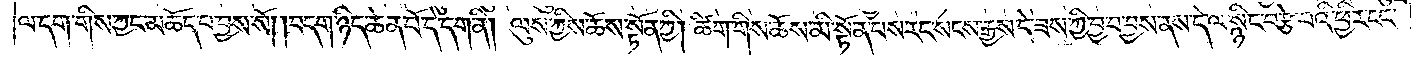ལ་དག་གིས་ཀྱང་མཆོད་པ་བྱས་སོ། །བདག་ཉིད་ཆེན་པོ་དེ་དག་ནི། ལུས་ཀྱིས་ཆོས་སྟོན་གྱི། ཚིག་གིས་ཆོས་མི་སྟོན་པས་རང་སངས་རྒྱས་དེ་ཟས་ཀྱི་བྱ་བ་བྱས་ནས་དེ་ལ་སྙིང་བརྩེ་བའི་ཕྱིར་ངང་
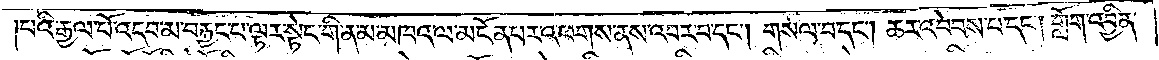།པའི་རྒྱལ་པོ་འདབ་མ་བརྐྱང་པ་ལྟར་སྟེང་གི་ནམ་མཁའ་ལ་མངོན་པར་འཕགས་ནས་འབར་བ་དང༌། གསལ་བ་དང༌། ཆར་འབེབས་པ་དང༌། གློག་འབྱིན་
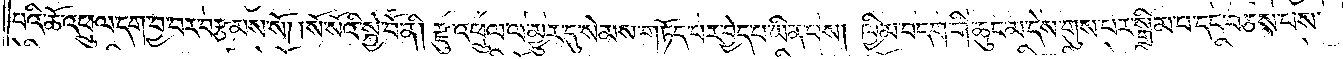པའི་ཆོ་འཕྲུལ་དག་བྱ་བར་བརྩམས་སོ། །སོ་སོའི་སྐྱེ་བོ་ནི། རྫུ་འཕྲུལ་ལ་མྱུར་དུ་སེམས་གཏོད་པར་བྱེད་པ་ཡིན་པས། ཁྱིམ་བདག་གི་ཆུང་མ་དེས་གུས་པར་སྒྲིམ་པ་དང་བཅས་པས་
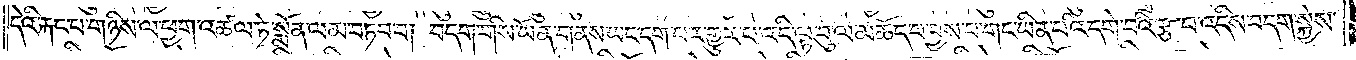དེའི་རྐང་པ་གཉིས་ལ་ཕྱག་འཚལ་ཏེ་སྨོན་ལམ་བཏབ་པ། བདག་གིས་ཡོན་གནས་ཡང་དག་པར་གྱུར་པ་འདི་ལྟ་བུ་ལ་མཆོད་པ་བྱས་པ་གང་ཡིན་པའི་དགེ་བའི་རྩ་བ་འདིས་བདག་སྐྱེས་
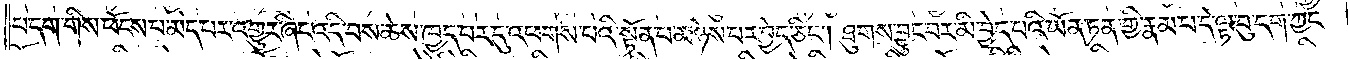པ་དག་གིས་ཕོངས་པ་མེད་པར་འགྱུར་ཞིང་འདི་བས་ཆེས་ཁྱད་པར་དུ་འཕགས་པའི་སྟོན་པ་མཉེས་པར་བྱེད་ཅིང༌། ཐུགས་བྱུང་བར་མི་བྱེད་པའི་ཡོན་ཏན་གྱི་རྣམ་པ་དེ་ལྟ་བུ་དག་ཀྱང་
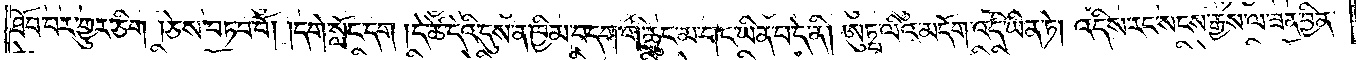ཐོབ་པར་གྱུར་ཅིག །ཅེས་བཏབ་བོ། །དགེ་སློང་དག །དེ་ཚེ་དེའི་དུས་ན་ཁྱིམ་བདག་གི་ཆུང་མ་གང་ཡིན་པ་དེ་ནི། ཨུཏྤ་ལའི་མདོག་འདི་ཡིན་ཏེ། འདིས་རང་སངས་རྒྱས་ལ་ཟན་བྱིན་
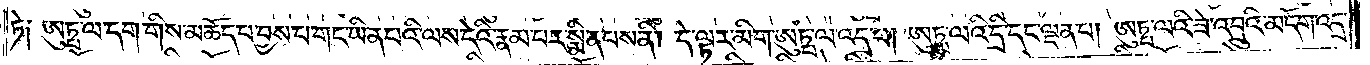ཏེ༑ ཨུཏྤ་ལ་དག་གིས་མཆོད་པ་བྱས་པ་གང་ཡིན་པའི་ལས་དེའི་རྣམ་པར་སྨིན་པས་ནི། དེ་ལྟར་མིག་ཨུཏྤ་ལ་འདྲ་བ། ཨུཏྤ་ལའི་དྲི་དང་ལྡན་པ། ཨུཏྤ་ལའི་ཟེ་འབྲུའི་མདོག་འདྲ་
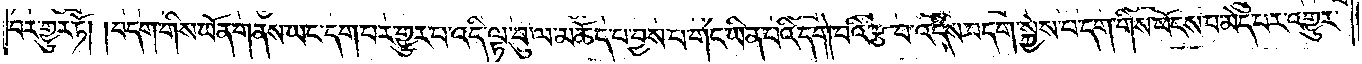བར་གྱུར་ཏོ། །བདག་གིས་ཡོན་གནས་ཡང་དག་པར་གྱུར་པ་འདི་ལྟ་བུ་ལ་མཆོད་པ་བྱས་པ་གང་ཡིན་པའི་དགེ་བའི་རྩ་བ་འདིས་བདག་སྐྱེས་པ་དག་གིས་ཕོངས་པ་མེད་པར་འགྱུར་
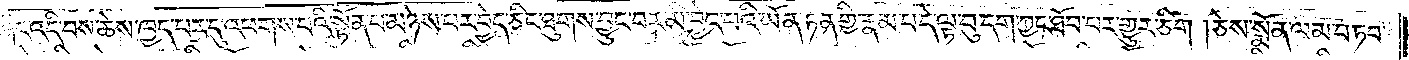ཞིང་འདི་བས་ཆེས་ཁྱད་པར་དུ་འཕགས་པའི་སྟོན་པ་མཉེས་པར་བྱེད་ཅིང་ཐུགས་བྱུང་བར་མི་བྱེད་པའི་ཡོན་ཏན་གྱི་རྣམ་པ་དེ་ལྟ་བུ་དག་ཀྱང་ཐོབ་པར་གྱུར་ཅིག །ཅེས་སྨོན་ལམ་བཏབ་
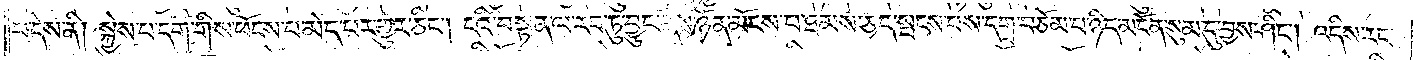པ་དེས་ནི། སྐྱེས་པ་དག་གིས་ཕོངས་པ་མེད་པར་གྱུར་ཅིང༌། ངའི་བསྟན་ལ་རབ་ཏུ་བྱུང་ནས་ཉོན་མོངས་པ་ཐམས་ཅད་སྤངས་པས་དགྲ་བཅོམ་པ་ཉིད་མངོན་སུམ་དུ་བྱས་ཤིང༌། འདིས་རང་
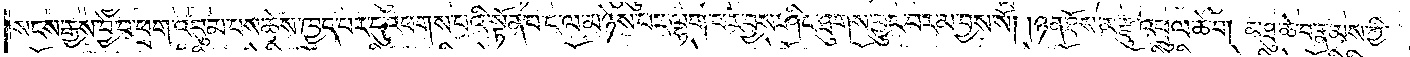སངས་རྒྱས་བྱེ་བ་ཕྲག་འབུམ་པས་ཆེས་ཁྱད་པར་དུ་འཕགས་པའི་སྟོན་པ་ང་ལ་མཉེས་པར་ལྷག་པར་བྱས་ཤིང་ཐུགས་བྱུང་བར་མ་བྱས་སོ། །ཉན་ཐོས་མ་རྫུ་འཕྲུ་ཆེ་བ། མཐུ་ཆེ་བ་རྣམས་ཀྱི་
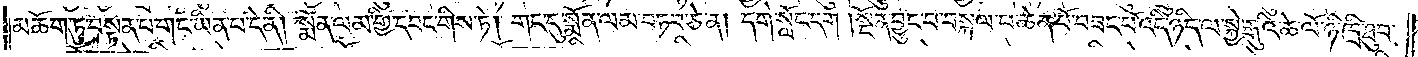མཆོག་ཏུ་བསྟན་པ་གང་ཡིན་པ་དེ་ནི། སྨོན་ལམ་གྱི་དབང་གིས་ཏེ། གང་དུ་སྨོན་ལམ་བཏབ་ཅེ་ན། དགེ་སློང་དག། སྔོན་བྱུང་བ་བསྐལ་པ་ཆེན་པོ་བཟང་པོ་འདི་ཉིད་ལ་སྐྱེ་རྒྱུའི་ཆེ་ལོ་ཉི་ཁྲི་ཐུབ་
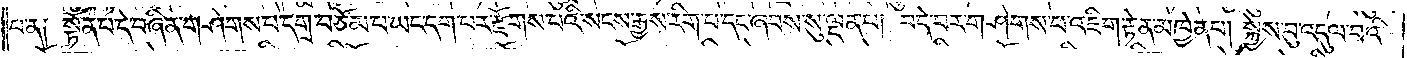པ་ན། སྟོན་པ་དེ་བཞིན་གཤེགས་པ་དགྲ་བཅོམ་པ་ཡང་དག་པར་རྫོགས་པའི་སངས་རྒྱས་རིག་པ་དང་ཞབས་སུ་ལྡན་པ། བདེ་བར་གཤེགས་པ་འཇིག་རྟེན་མཁྱེན་པ། སྐྱེས་བུ་འདུལ་བའི་
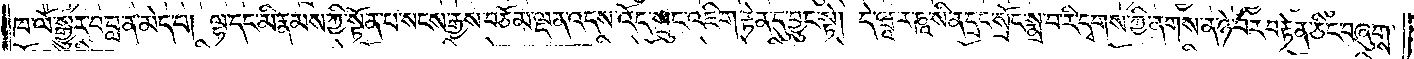ཁ་ལོ་སྒྱུར་བ་བླ་ན་མེད་པ། ལྷ་དང་མི་རྣམས་ཀྱི་སྟོན་པ་སངས་རྒྱས་བཅོམ་ལྡན་འདས་འོད་སྲུང་འཇིག་རྟེན་དུ་བྱུང་སྟེ། དེ་ཝཱ་ར་ཎཱ་སི་ན་དྲང་སྲོང་སྨྲ་བ་རི་དྭགས་ཀྱི་ནགས་ན་ཉེ་བར་བརྟེན་ཅིང་བཞུགས་
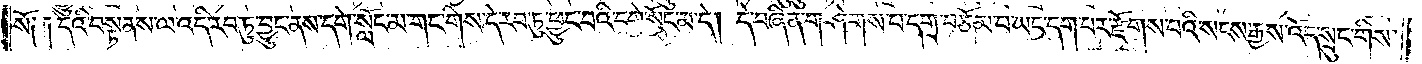སོ༑ ༑དེའི་བསྟན་ས་ལ་འདི་རབ་ཏུ་བྱུང་ནས་དགེ་སློང་མ་གང་གིས་དེ་རབ་ཏུ་ཕྱུང་བའི་དགེ་སློང་མ་དེ། དེ་བཞིན་གཤེགས་པ་དགྲ་བཅོམ་པ་ཡང་དག་པར་རྫོགས་པའི་སངས་རྒྱས་འོད་སྲུང་གི་
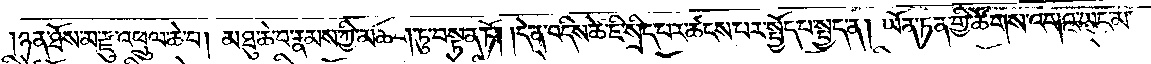ཉན་ཐོས་མ་རྫུ་འཕྲུལ་ཆེ་བ། མཐུ་ཆེ་བ་རྣམས་ཀྱི་མཆོག་ཏུ་བསྟན་ཏོ། །དེ་ན་འདིས་ཚེ་ཇི་སྲིད་པར་ཚངས་པར་སྤྱོད་པ་སྤྱད་ན། ཡོན་ཏན་གྱི་ཚོགས་འགའ་ཡང་མ་
